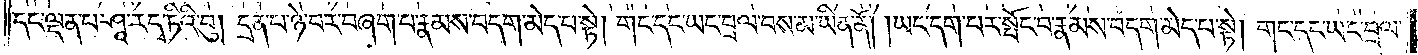དང་ལྡན་པ་ཤཱ་ར་དྭ་ཏིའི་བུ། དྲན་པ་ཉེ་བར་བཞག་པ་རྣམས་བདག་མེད་པ་སྟེ། གང་དང་ཡང་བྲལ་བས་མ་ཡིན་ནོ། །ཡང་དག་པར་སྤོང་བ་རྣམས་བདག་མེད་པ་སྟེ། གང་དང་ཡང་བྲལ་
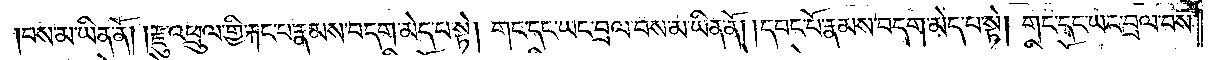བས་མ་ཡིན་ནོ། །རྫུ་འཕྲུལ་གྱི་རྐང་པ་རྣམས་བདག་མེད་པ་སྟེ། གང་དང་ཡང་བྲལ་བས་མ་ཡིན་ནོ། །དབང་པོ་རྣམས་བདག་མེད་པ་སྟེ། གང་དང་ཡང་བྲལ་བས་
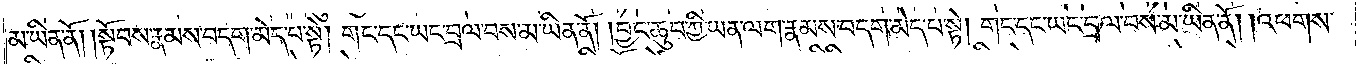མ་ཡིན་ནོ། །སྟོབས་རྣམས་བདག་མེད་པ་སྟེ། གང་དང་ཡང་བྲལ་བས་མ་ཡིན་ནོ། །བྱང་ཆུབ་ཀྱི་ཡན་ལག་རྣམས་བདག་མེད་པ་སྟེ། གང་དང་ཡང་བྲལ་བས་མ་ཡིན་ནོ། །འཕགས་
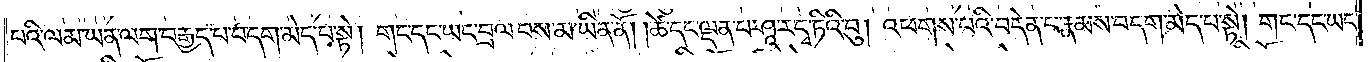པའི་ལམ་ཡན་ལག་བརྒྱད་པ་བདག་མེད་པ་སྟེ། གང་དང་ཡང་བྲལ་བས་མ་ཡིན་ནོ། །ཚེ་དང་ལྡན་པ་ཤཱ་ར་དྭ་ཏིའི་བུ། འཕགས་པའི་བདེན་པ་རྣམས་བདག་མེད་པ་སྟེ། གང་དང་ཡང་
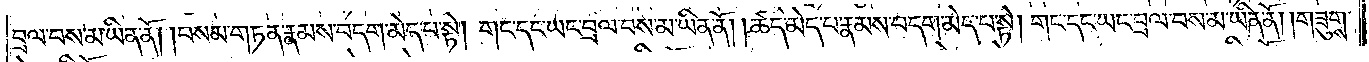བྲལ་བས་མ་ཡིན་ནོ། །བསམ་གཏན་རྣམས་བདག་མེད་པ་སྟེ། གང་དང་ཡང་བྲལ་བས་མ་ཡིན་ནོ། ཚད་མེད་པ་རྣམས་བདག་མེད་པ་སྟེ། གང་དང་ཡང་བྲལ་བས་མ་ཡིན་ནོ། །གཟུགས་
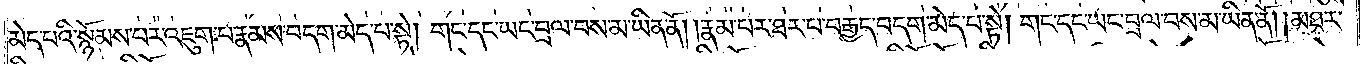མེད་པའི་སྙོམས་པར་འཇུག་པ་རྣམས་བདག་མེད་པ་སྟེ། གང་དང་ཡང་བྲལ་བས་མ་ཡིན་ནོ། །རྣམ་པར་ཐར་པ་བརྒྱད་བདག་མེད་པ་སྟེ། གང་དང་ཡང་བྲལ་བས་མ་ཡིན་ནོ། །མཐར་
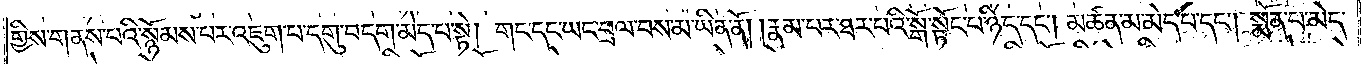གྱིས་གནས་པའི་སྙོམས་པར་འཇུག་པ་དགུ་བདག་མེད་པ་སྟེ། གང་དང་ཡང་བྲལ་བས་མ་ཡིན་ནོ། །རྣམ་པར་ཐར་པའི་སྒོ་སྟོང་པ་ཉིད་དང༌། མཚན་མ་མེད་པ་དང༌། སྨོན་པ་མེད་
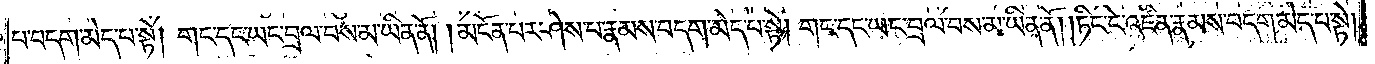པ་བདག་མེད་པ་སྟེ། གང་དང་ཡང་བྲལ་བས་མ་ཡིན་ནོ། །མངོན་པར་ཤེས་པ་རྣམས་བདག་མེད་པ་སྟེ། གང་དང་ཡང་བྲལ་བས་མ་ཡིན་ནོ། །ཏིང་ངེ་འཛིན་རྣམས་བདག་མེད་པ་སྟེ།
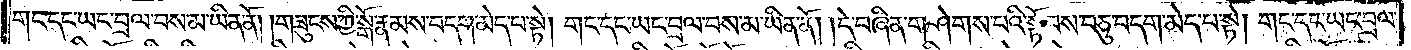གང་དང་ཡང་བྲལ་བས་མ་ཡིན་ནོ། །གཟུངས་ཀྱི་སྒོ་རྣམས་བདག་མེད་པ་སྟེ། གང་དང་ཡང་བྲལ་བས་མ་ཡིན་ནོ། །དེ་བཞིན་གཤེགས་པའི་སྟོབས་བཅུ་བདག་མེད་པ་སྟེ། གང་དང་ཡང་བྲལ་
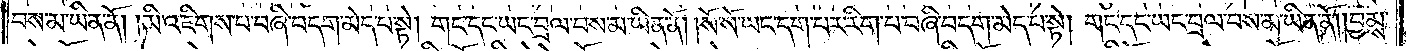བས་མ་ཡིན་ནོ། །མི་འཇིགས་པ་བཞི་བདག་མེད་པ་སྟེ། གང་དང་ཡང་བྲལ་བས་མ་ཡིན་ནོ། །སོ་སོ་ཡང་དག་པར་རིག་པ་བཞི་བདག་མེད་པ་སྟེ། གང་དང་ཡང་བྲལ་བས་མ་ཡིན་ནོ། །བྱམས་
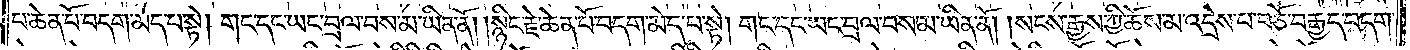པ་ཆེན་པོ་བདག་མེད་པ་སྟེ། གང་དང་ཡང་བྲལ་བས་མ་ཡིན་ནོ། །སྙིང་རྗེ་ཆེན་པོ་བདག་མེད་པ་སྟེ། གང་དང་ཡང་བྲལ་བས་མ་ཡིན་ནོ། །སངས་རྒྱས་ཀྱི་ཆོས་མ་འདྲེས་པ་བཅོ་བརྒྱད་བདག་
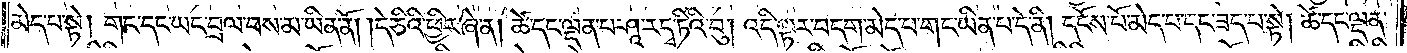མེད་པ་སྟེ། གང་དང་ཡང་བྲལ་བས་མ་ཡིན་ནོ། །དེ་ཅིའི་ཕྱིར་ཞེ་ན། ཚེ་དང་ལྡན་པ་ཤཱ་ར་དྭ་ཏིའི་བུ། འདི་ལྟར་བདག་མེད་པ་གང་ཡིན་པ་དེ་ནི། དངོས་པོ་མེད་པ་དང་ཟད་པ་སྟེ། ཚེ་དང་ལྡན་
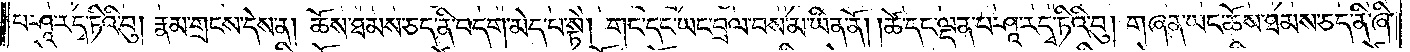པ་ཤཱ་ར་དྭ་ཏིའི་བུ། རྣམ་གྲངས་དེས་ན། ཆོས་ཐམས་ཅད་ནི་བདག་མེད་པ་སྟེ། གང་དང་ཡང་བྲལ་བས་མ་ཡིན་ནོ། །ཚེ་དང་ལྡན་པ་ཤཱ་ར་དྭ་ཏིའི་བུ། གཞན་ཡང་ཆོས་ཐམས་ཅད་ནི་ཞི་
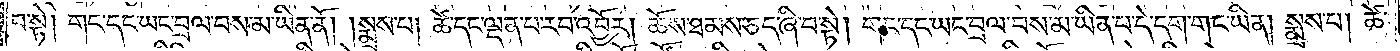བ་སྟེ། གང་དང་ཡང་བྲལ་བས་མ་ཡིན་ནོ། །སྨྲས་པ། ཚེ་དང་ལྡན་པ་རབ་འབྱོར་ཆོས་ཐམས་ཅད་ཞི་བ་སྟེ། གང་དང་ཡང་བྲལ་བས་མ་ཡིན་པ་དེ་དག་གང་ཡིན། སྨྲས་པ། ཚེ་
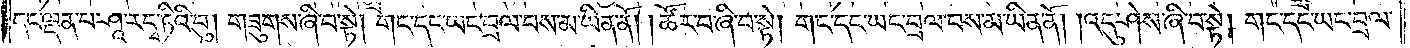དང་ལྡན་པ་ཤཱ་ར་དྭ་ཏིའི་བུ། གཟུགས་ཞི་བ་སྟེ། གང་དང་ཡང་བྲལ་བས་མ་ཡིན་ནོ། །ཚོར་བ་ཞི་བ་སྟེ། གང་དང་ཡང་བྲལ་བས་མ་ཡིན་ནོ། །འདུ་ཤེས་ཞི་བ་སྟེ། གང་དང་ཡང་བྲལ་
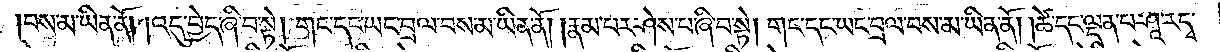བས་མ་ཡིན་ནོ། །འདུ་བྱེད་ཞི་བ་སྟེ། གང་དང་ཡང་བྲལ་བས་མ་ཡིན་ནོ། །རྣམ་པར་ཤེས་པ་ཞི་བ་སྟེ། གང་དང་ཡང་བྲལ་བས་མ་ཡིན་ནོ། །ཚེ་དང་ལྡན་པ་ཤཱ་ར་དྭ་
